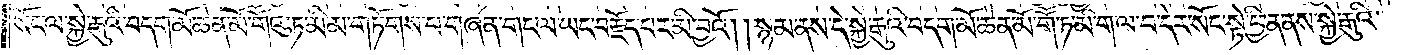སོང་ལ་སྐྱེ་རྒུའི་བདག་མོ་ཆེན་མོ་གཽའུ་ཏ་མི་མ་གཏོགས་པ་གཞན་གང་ལ་ཡང་བརྗོད་པར་མི་བྱའོ། །སྙམ་ནས་དེ་སྐྱེ་རྒུའི་བདག་མོ་ཆེན་མོ་གཽ་ཏ་མི་ག་ལ་བ་དེར་སོང་སྟེ་ཕྱིན་ནས་སྐྱེ་རྒུའི་
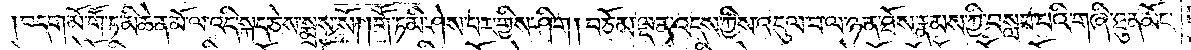བདག་མོ་གཽ་ཏ་མི་ཆེན་མོ་ལ་འདི་སྐད་ཅེས་སྨྲས་སོ། །གཽ་ཏ་མི་ཤེས་པར་གྱིས་ཤིག །བཅོམ་ལྡན་འདས་ཀྱིས་འདུལ་བ་ལ་ཉན་ཐོས་རྣམས་ཀྱི་བསླབ་པའི་གཞི་ཐུན་མོང་
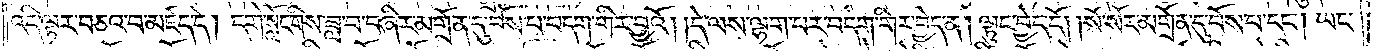འདི་ལྟར་བཅའ་བ་མཛད་དེ། དགེ་སློང་གིས་ཟླ་བ་བཞིར་མགྲོན་དུ་བོས་པ་བདག་གིར་བྱའོ། །དེ་ལས་ལྷག་པར་བདག་གིར་བྱེད་ན། ལྟུང་བྱེད་དོ། །སོ་སོར་མགྲོན་དུ་བོས་པ་དང༌། ཡང་
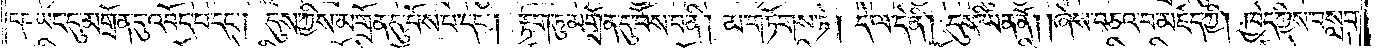དང་ཡང་དུ་མགྲོན་དུ་འབོད་པ་དང༌། དུས་ཀྱིས་མགྲོན་དུ་བོས་པ་དང༌། རྟག་ཏུ་མགྲོན་དུ་བོས་པ་ནི། མ་གཏོགས་ཏེ། དེ་ལ་དེ་ནི། དུས་ཡིན་ནོ། །ཞེས་བཅའ་བ་མཛད་ཀྱི། ཁྱེད་ཀྱིས་བསླབ་
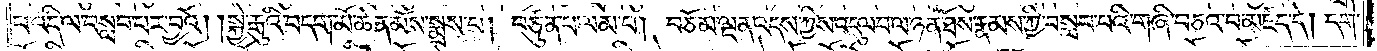པ་འདི་ལ་བསླབ་པར་བྱའོ། །སྐྱེ་རྒུའི་བདག་མོ་ཆེན་མོས་སྨྲས་པ། བཙུན་པ་ལམ་པ། བཅོམ་ལྡན་འདས་ཀྱིས་འདུལ་བ་ལ་ཉན་ཐོས་རྣམས་ཀྱི་བསླབ་པའི་གཞི་བཅའ་བ་མཛད་དེ། དགེ་
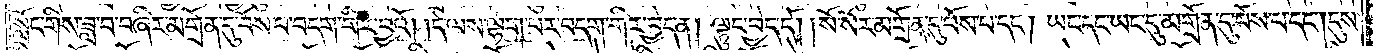སློང་གིས་ཟླ་བ་བཞིར་མགྲོན་དུ་བོས་པ་བདག་གིར་བྱའོ། །དེ་ལས་ལྷག་པར་བདག་གིར་བྱེད་ན། ལྟུང་བྱེད་དོ། །སོ་སོར་མགྲོན་དུ་བོས་པ་དང༌། ཡང་དང་ཡང་དུ་མགྲོན་དུ་བོས་པ་དང༌། དུས་
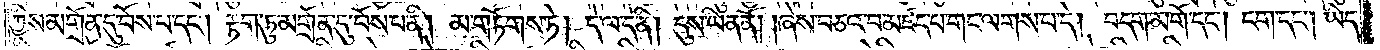ཀྱིས་མགྲོན་དུ་བོས་པ་དང༌། རྟག་ཏུ་མགྲོན་དུ་བོས་པ་ནི། མ་གཏོགས་ཏེ། དེ་ལ་དེ་ནི། དུས་ཡིན་ནོ། །ཞེས་བཅའ་བ་མཛད་པ་གང་ལགས་པ་དེ། བདག་མགོ་དང༌། ངག་དང༌། ཡིད་
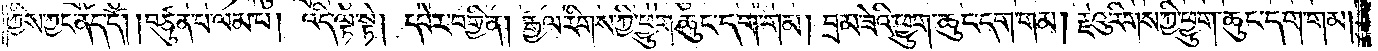ཀྱིས་ཀྱང་ནོད་དོ། །བཙུན་པ་ལམ་པ། འདི་ལྟ་སྟེ། དཔེར་བགྱི་ན། རྒྱལ་རིགས་ཀྱི་ཕྱུག་ཆུང་དག་གམ། བྲམ་ཟེའི་ཕྱུག་ཆུང་དག་གམ། རྗེའུ་རིགས་ཀྱི་ཕྱུག་ཆུང་དག་གམ།
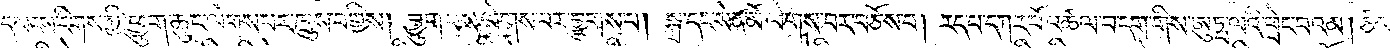དམངས་རིགས་ཀྱི་ཕྱུག་ཆུང་ལེགས་པར་ཁྲུས་བགྱིས། བྱུག་པས་ལེགས་པར་བྱུགས་པ། སྐྲ་དང་སེན་མོ་ལེགས་པར་བཅོས་པ། རད་པ་དཀར་པོ་འཚལ་བ་དག་གིས་ཨུཏྤ་ལའི་ཕྲེང་བའམ། ཙམ་
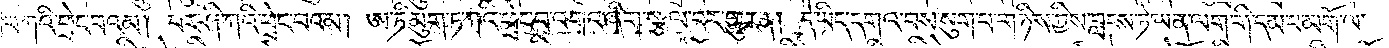པ་ཀའི་ཕྲེང་བའམ། བར་ཤི་ཀའི་ཕྲེང་བའམ། ཨ་ཏི་མུག་ཏ་ཀའི་ཕྲེང་བ་འགའ་ཞིག་སྩལ་བར་གྱུར་ན། དེ་ཡིད་དགའ་བས་སུག་པ་གཉིས་ཀྱིས་བླངས་ཏེ་ཡན་ལག་གི་དམ་པ་མགོ་ལ་
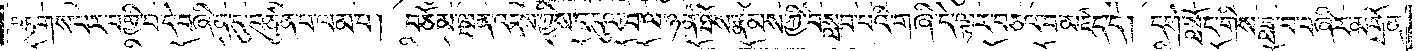བཏགས་པར་བགྱི་བ་དེ་བཞིན་དུ་བཙུན་པ་ལམ་པ། བཅོམ་ལྡན་འདས་ཀྱིས་འདུལ་བ་ལ་ཉན་ཐོས་རྣམས་ཀྱི་བསླབ་པའི་གཞི་དེ་ལྟར་བཅའ་བ་མཛད་དེ། དགེ་སློང་གིས་ཟླ་བ་བཞིར་མགྲོན་
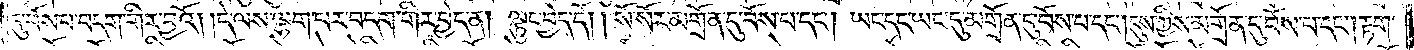དུ་བོས་པ་བདག་གིར་བྱའོ། །དེ་ལས་ལྷག་པར་བདག་གིར་བྱེད་ན། ལྟུང་བྱེད་དོ། །སོ་སོར་མགྲོན་དུ་བོས་པ་དང༌། ཡང་དང་ཡང་དུ་མགྲོན་དུ་བོས་པ་དང༌། དུས་ཀྱིས་མགྲོན་དུ་བོས་པ་དང༌། རྟག་
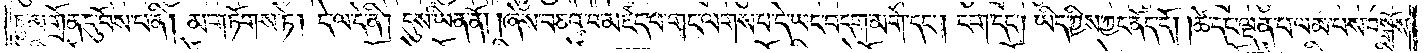ཏུ་མགྲོན་དུ་བོས་པ་ནི། མ་གཏོགས་ཏེ། དེ་ལ་དེ་ནི། དུས་ཡིན་ནོ། །ཞེས་བཅའ་བ་མཛད་པ་གང་ལགས་པ་དེ་ཡང་བདག་མགོ་དང༌། ངག་དང༌། ཡིད་ཀྱིས་ཀྱང་ནོད་དོ། །ཚེ་དང་ལྡན་པ་ལམ་པས་བསྒོས་
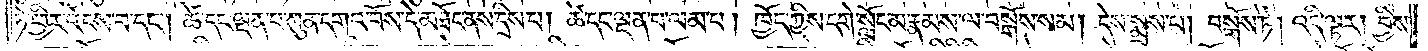ཏེ་ཕྱིར་འོངས་པ་དང༌། ཚེ་དང་ལྡན་པ་ཀུན་དགའ་བོས་དེ་མཐོང་ནས་དྲིས་པ། ཚེ་དང་ལྡན་པ་ལམ་པ། ཁྱོད་ཀྱིས་དགེ་སློང་མ་རྣམས་ལ་བསྒོས་སམ། དེས་སྨྲས་པ། བསྒོས་ཏེ། འདི་ལྟར། བྱིས་
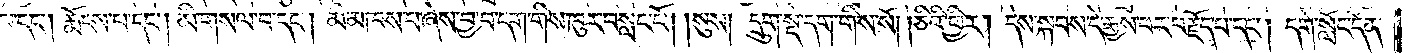པ་དང༌། རྨོངས་པ་དང༌། མི་གསལ་བ་དང༌། མི་མཁས་པ་ཞེས་བྱ་བ་དག་གིས་ཁུར་བསླང་ངོ༌། །སུས། དྲུག་སྡེ་དག་གིས་སོ། །ཅིའི་ཕྱིར། དེས་སྐབས་དེ་རྒྱས་པར་བརྗོད་པ་དང༌། དགེ་སློང་དོན་
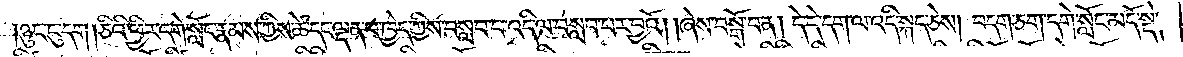ཉུང་ངུ་དག །ཅིའི་ཕྱིར་དགེ་སློང་རྣམས་ཀྱིས་ཚེ་དང་ལྡན་པ་ཁྱེད་ཀྱིས་བསླབ་པ་འདི་ལ་བསླབ་པར་བྱའོ། །ཞེས་བསྒོ་བ་ན། དེ་དེ་དག་ལ་འདི་སྐད་ཅེས། བདག་ཅག་དགེ་སློང་མདོ་སྡེ།
